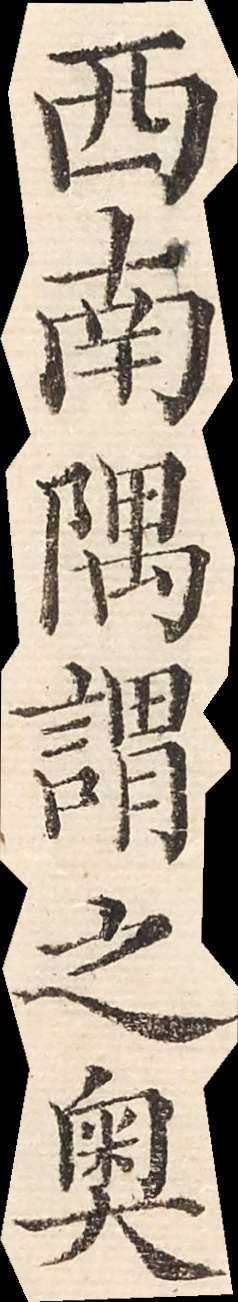西南隅謂之奧
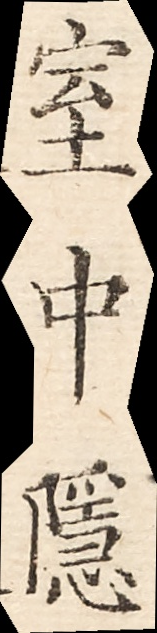室中隱
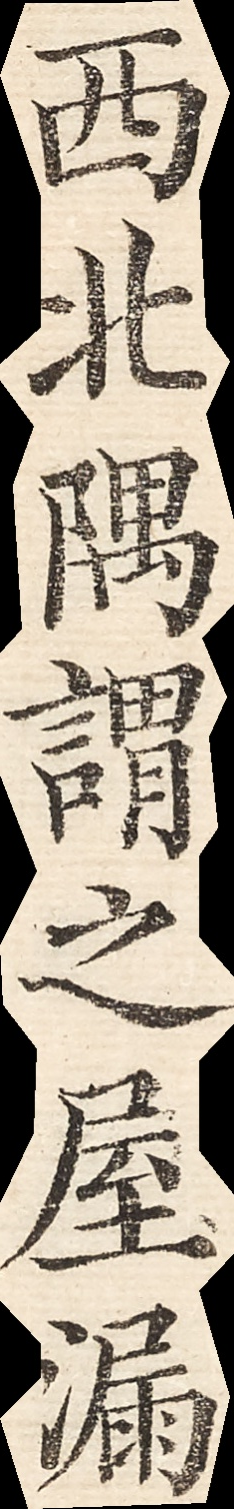西北隅謂之屋漏
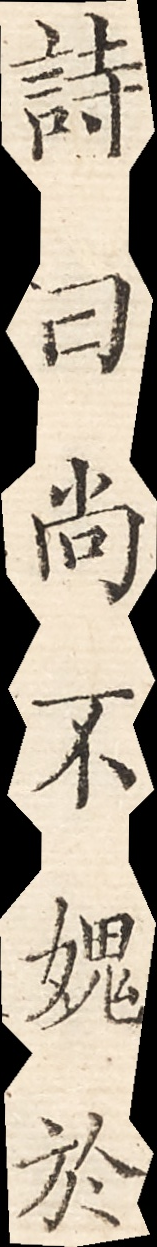詩曰尚不鬼於
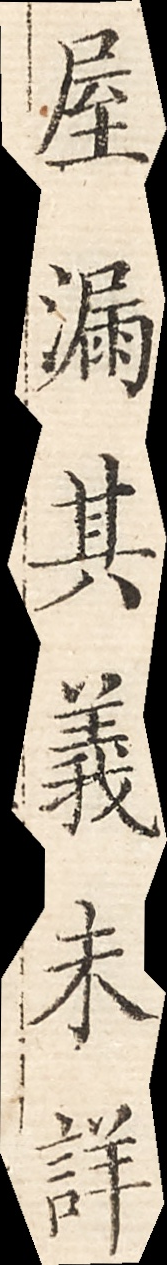屋漏其義未詳
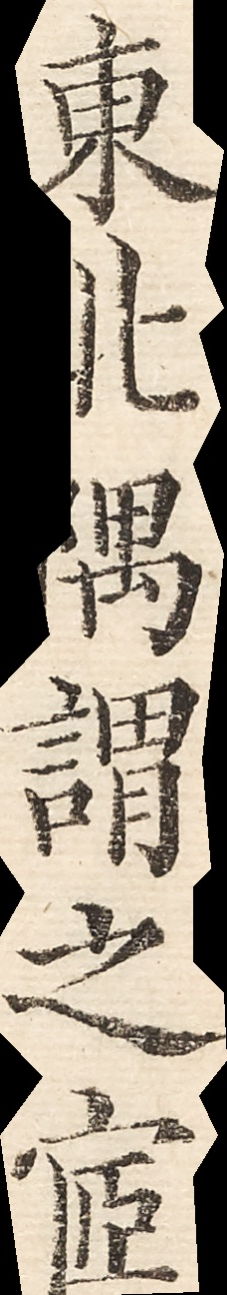東北隅謂之宧
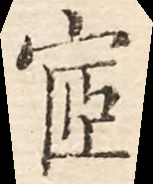宧
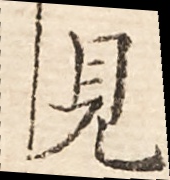見
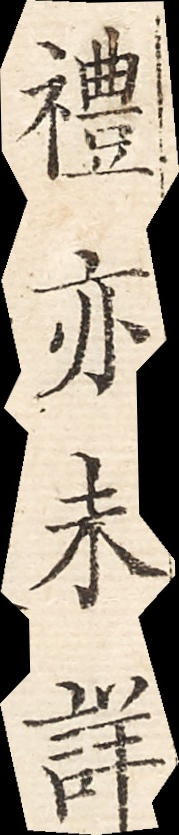禮亦未詳
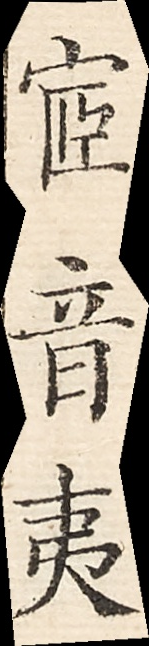宧音夷
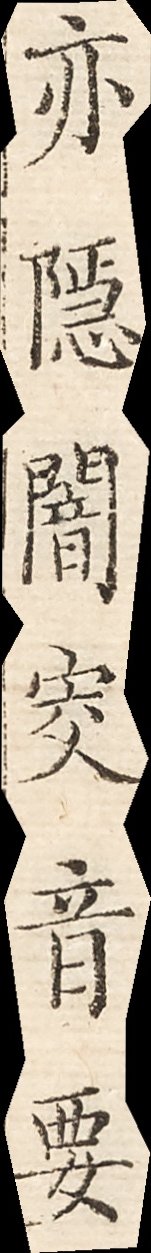亦隱闇㝔音要
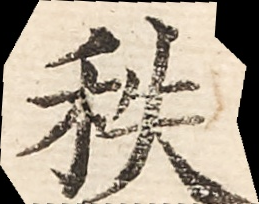柣
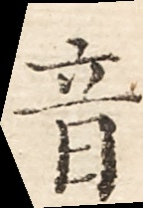音
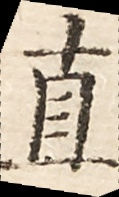直
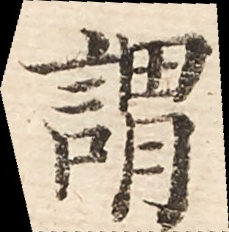謂
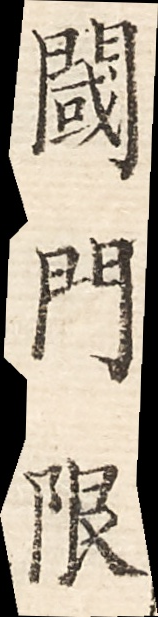閾門限
